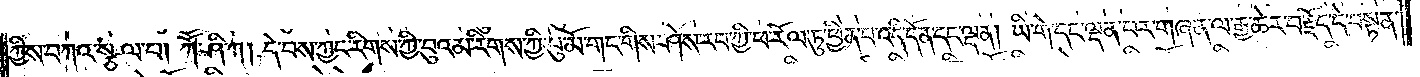ཀྱིས་བཀའ་སྩལ་པ། ཀཽ་ཤི་ཀ། དེ་བས་ཀྱང་རིགས་ཀྱི་བུའམ་རིགས་ཀྱི་བུ་མོ་གང་གིས་ཤེས་རབ་ཀྱི་ཕ་རོལ་ཏུ་ཕྱིན་པ་འདི་དོན་དང་ལྡན། ཡི་གེ་དང་ལྡན་པར་གཞན་ལ་རྒྱ་ཆེར་བརྗོད་དེ་བསྟན་
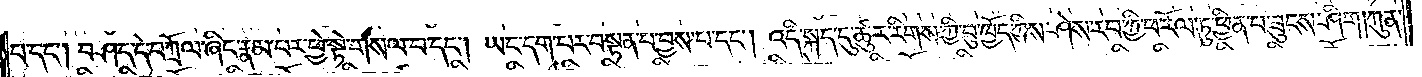པ་དང༌། བཤད་དེ་བཀྲོལ་ཞིང་རྣམ་པར་ཕྱེ་སྟེ་གསལ་བ་དང༌། ཡང་དག་པར་བསྟན་པ་བྱས་པ་དང༌། འདི་སྐད་དུ་ཚུར་རིགས་ཀྱི་བུ་ཁྱོད་ཀྱིས་ཤེས་རབ་ཀྱི་ཕ་རོལ་ཏུ་ཕྱིན་པ་ཟུངས་ཤིག །ཀུན་
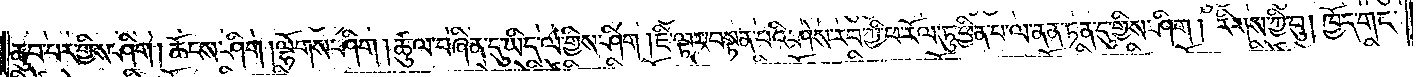ཆུབ་པར་གྱིས་ཤིག །ཆོངས་ཤིག །ལྷོགས་ཤིག །ཚུལ་བཞིན་དུ་ཡིད་ལ་གྱིས་ཤིག །ཇི་ལྟར་བསྟན་པའི་ཤེས་རབ་ཀྱི་ཕ་རོལ་ཏུ་ཕྱིན་པ་ལ་ནན་ཏན་དུ་གྱིས་ཤིག །རིགས་ཀྱི་བུ། ཁྱོད་གང་
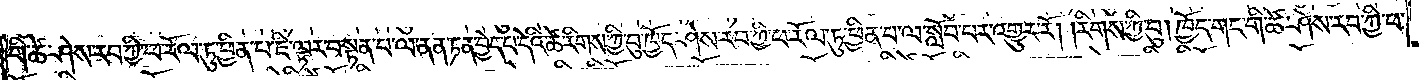གི་ཚེ་ཤེས་རབ་ཀྱི་ཕ་རོལ་ཏུ་ཕྱིན་པ་ཇི་ལྟར་བསྟན་པ་ལ་ནན་ཏན་བྱེད་པ་དེའི་ཚེ་རིགས་ཀྱི་བུ་ཁྱོད་ཤེས་རབ་ཀྱི་ཕ་རོལ་ཏུ་ཕྱིན་པ་ལ་སློབ་པར་འགྱུར་རོ། །རིགས་ཀྱི་བུ། ཁྱོད་གང་གི་ཚེ་ཤེས་རབ་ཀྱི་ཕ་
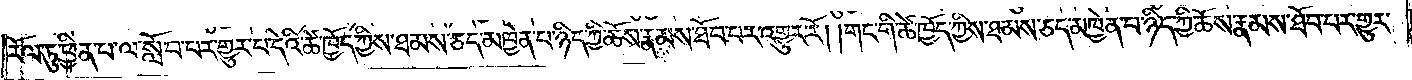རོལ་ཏུ་ཕྱིན་པ་ལ་སློབ་པར་གྱུར་པ་དེའི་ཚེ་ཁྱོད་ཀྱིས་ཐམས་ཅད་མཁྱེན་པ་ཉིད་ཀྱི་ཆོས་རྣམས་ཐོབ་པར་འགྱུར་རོ། །གང་གི་ཚེ་ཁྱོད་ཀྱིས་ཐམས་ཅད་མཁྱེན་པ་ཉིད་ཀྱི་ཆོས་རྣམས་ཐོབ་པར་གྱུར་
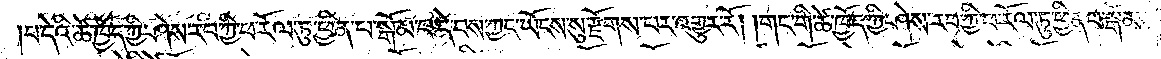པ་དེའི་ཚེ་ཁྱོད་ཀྱི་ཤེས་རབ་ཀྱི་ཕ་རོལ་ཏུ་ཕྱིན་པ་སྒོམ་བ་དེ་བས་ཀྱང་ཡོངས་སུ་རྫོགས་པར་འགྱུར་རོ། །གང་གི་ཚེ་ཁྱོད་ཀྱི་ཤེས་རབ་ཀྱི་ཕ་རོལ་ཏུ་ཕྱིན་པ་སྒོམ་
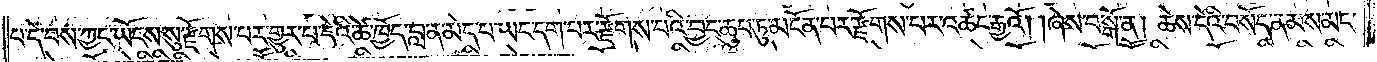པ་དེ་བས་ཀྱང་ཡོངས་སུ་རྫོགས་པར་གྱུར་པ་དེའི་ཚེ་ཁྱོད་བླ་ན་མེད་པ་ཡང་དག་པར་རྫོགས་པའི་བྱང་ཆུབ་ཏུ་མངོན་པར་རྫོགས་པར་འཚང་རྒྱའོ། །ཞེས་བསྒོ་ན། ཆེས་དེའི་བསོད་ནམས་མང་
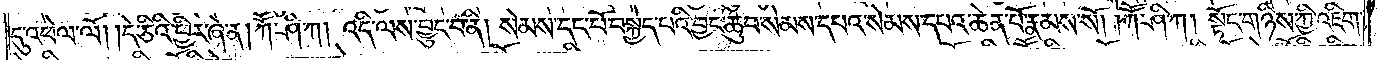དུ་འཕེལ་ལོ། །དེ་ཅིའི་ཕྱིར་ཞེ་ན། ཀཽ་ཤི་ཀ། འདི་ལས་བྱུང་བ་ནི། སེམས་དང་པོ་བསྐྱེད་པའི་བྱང་ཆུབ་སེམས་དཔའ་སེམས་དཔའ་ཆེན་པོ་རྣམས་སོ། །ཀཽ་ཤི་ཀ། སྟོང་གཉིས་ཀྱི་འཇིག་
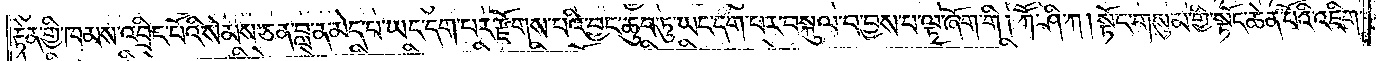རྟེན་གྱི་ཁམས་འབྲིང་པོའི་སེམས་ཅན་བླ་ན་མེད་པ་ཡང་དག་པར་རྫོགས་བའི་བྱང་ཆུབ་ཏུ་ཡང་དག་པར་བསྐུལ་བ་བྱས་པ་ལྟ་ཞོག་གི །ཀཽ་ཤི་ཀ། སྟོང་གསུམ་གྱི་སྟོང་ཆེན་པོའི་འཇིག་
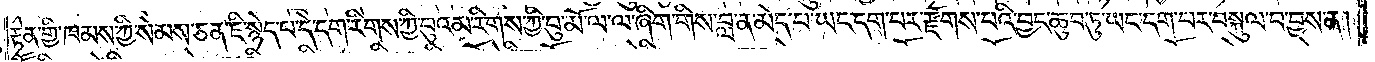རྟེན་གྱི་ཁམས་ཀྱི་སེམས་ཅན་ཇི་སྙེད་པ་དེ་དག་རིགས་ཀྱི་བུའམ་རིགས་ཀྱི་བུ་མོ་ལ་ལ་ཞིག་གིས་བླ་ན་མེད་པ་ཡང་དག་པར་རྫོགས་པའི་བྱང་ཆུབ་ཏུ་ཡང་དག་པར་བསྐུལ་བ་བྱས་ན།
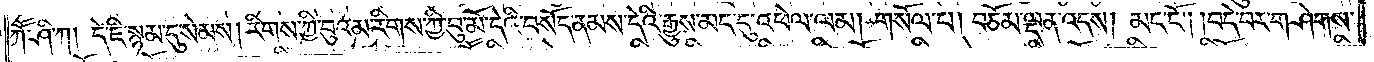ཀཽ་ཤི་ཀ། དེ་ཇི་སྙམ་དུ་སེམས། རིགས་ཀྱི་བུའམ་རིགས་ཀྱི་བུ་མོ་དེའི་བསོད་ནམས་དེའི་རྒྱུས་མང་དུ་འཕེལ་ལམ། གསོལ་པ། བཅོམ་ལྡན་འདས། མང་ངོ༌། །བདེ་བར་གཤེགས་
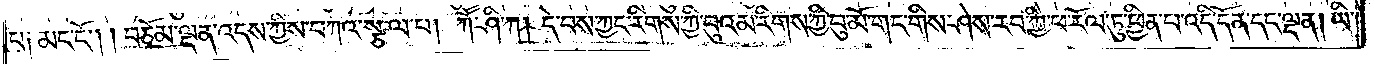པ༑ མང་ངོ༌། །བཅོམ་ལྡན་འདས་ཀྱིས་བཀའ་སྩལ་པ། ཀཽ་ཤི་ཀ། དེ་བས་ཀྱང་རིགས་ཀྱི་བུའམ་རིགས་ཀྱི་བུ་མོ་གང་གིས་ཤེས་རབ་ཀྱི་ཕ་རོལ་ཏུ་ཕྱིན་པ་འདི་དོན་དང་ལྡན། ཡི་
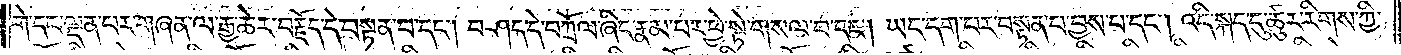གེ་དང་ལྡན་པར་གཞན་ལ་རྒྱ་ཆེར་བརྗོད་དེ་བསྟན་པ་དང༌། བཤད་དེ་བཀྲོལ་ཞིང་རྣམ་པར་ཕྱེ་སྟེ་གསལ་བ་དང༌། ཡང་དག་པར་བསྟན་པ་བྱས་པ་དང༌། འདི་སྐད་དུ་ཚུར་རིགས་ཀྱི་
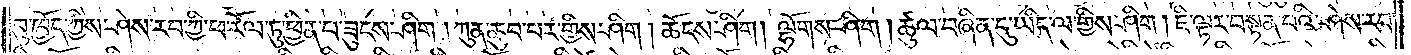བུ་ཁྱོད་ཀྱིས་ཤེས་རབ་ཀྱི་ཕ་རོལ་ཏུ་ཕྱིན་པ་ཟུངས་ཤིག །ཀུན་ཆུབ་པར་གྱིས་ཤིག །ཆོངས་ཤིག །ལྷོགས་ཤིག །ཚུལ་བཞིན་དུ་ཡིད་ལ་གྱིས་ཤིག །ཇི་ལྟར་བསྟན་པའི་ཤེས་རབ་
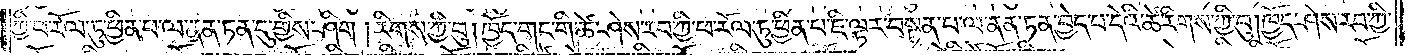ཀྱི་ཕ་རོལ་ཏུ་ཕྱིན་པ་ལ་ནན་ཏན་དུ་གྱིས་ཤིག །རིགས་ཀྱི་བུ། ཁྱོད་གང་གི་ཚེ་ཤེས་རབ་ཀྱི་ཕ་རོལ་ཏུ་ཕྱིན་པ་ཇི་ལྟར་བསྟན་པ་ལ་ནན་ཏན་བྱེད་བ་དེའི་ཚེ་རིགས་ཀྱི་བུ། ཁྱོད་ཤེས་རབ་ཀྱི་
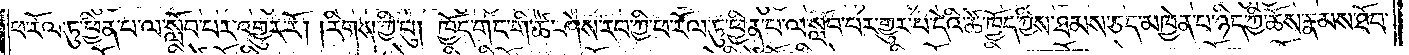ཕ་རོལ་ཏུ་ཕྱིན་པ་ལ་སློབ་པར་འགྱུར་རོ། །རིགས་ཀྱི་བུ། ཁྱོད་གང་གི་ཚེ་ཤེས་རབ་ཀྱི་ཕ་རོལ་ཏུ་ཕྱིན་པ་ལ་སློབ་པར་གྱུར་པ་དེའི་ཚེ་ཁྱོད་ཀྱིས་ཐམས་ཅད་མཁྱེན་པ་ཉིད་ཀྱི་ཆོས་རྣམས་ཐོབ་
